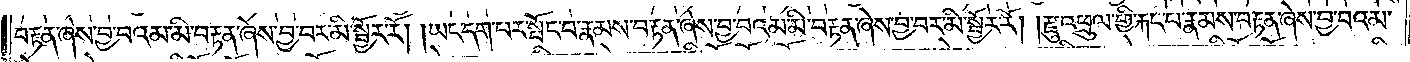བརྟན་ཞེས་བྱ་བའམ་མི་བརྟན་ཞེས་བྱ་བར་མི་སྦྱོར་རོ། །ཡང་དག་པར་སྤོང་བ་རྣམས་བརྟན་ཞེས་བྱ་བའམ་མི་བརྟན་ཞེས་བྱ་བར་མི་སྦྱོར་རོ། །རྫུ་འཕྲུལ་གྱི་རྐང་པ་རྣམས་བརྟན་ཞེས་བྱ་བའམ་
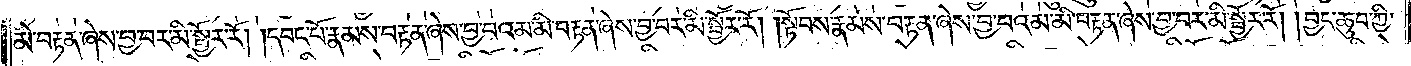མི་བརྟན་ཞེས་བྱ་བར་མི་སྦྱོར་རོ། །དབང་པོ་རྣམས་བརྟན་ཞེས་བྱ་བའམ་མི་བརྟན་ཞེས་བྱ་བར་མི་སྦྱོར་རོ། །སྟོབས་རྣམས་བརྟན་ཞེས་བྱ་བའམ་མི་བརྟན་ཞེས་བྱ་བར་མི་སྦྱོར་རོ། །བྱང་ཆུབ་ཀྱི་
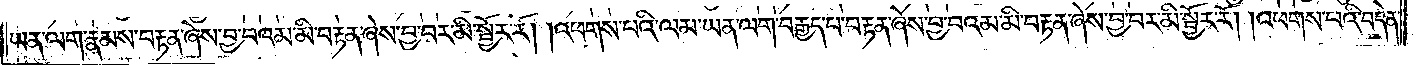ཡན་ལག་རྣམས་བརྟན་ཞེས་བྱ་བའམ་མི་བརྟན་ཞེས་བྱ་བར་མི་སྦྱོར་རོ། །འཕགས་པའི་ལམ་ཡན་ལག་བརྒྱད་པ་བརྟན་ཞེས་བྱ་བའམ་མི་བརྟན་ཞེས་བྱ་བར་མི་སྦྱོར་རོ། །འཕགས་པའི་བདེན་
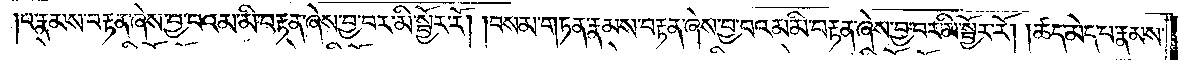པ་རྣམས་བརྟན་ཞེས་བྱ་བའམ་མི་བརྟན་ཞེས་བྱ་བར་མི་སྦྱོར་རོ། །བསམ་གཏན་རྣམས་བརྟན་ཞེས་བྱ་བའམ་མི་བརྟན་ཞེས་བྱ་བར་མི་སྦྱོར་རོ། །ཚད་མེད་པ་རྣམས་
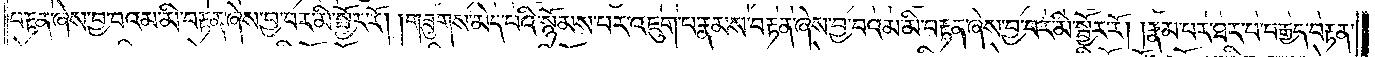བརྟན་ཞེས་བྱ་བའམ་མི་བརྟན་ཞེས་བྱ་བར་མི་སྦྱོར་རོ། །གཟུགས་མེད་པའི་སྙོམས་པར་འཇུག་པ་རྣམས་བརྟན་ཞེས་བྱ་བའམ་མི་བརྟན་ཞེས་བྱ་བར་མི་སྦྱོར་རོ། །རྣམ་པར་ཐར་པ་བརྒྱད་བརྟན་
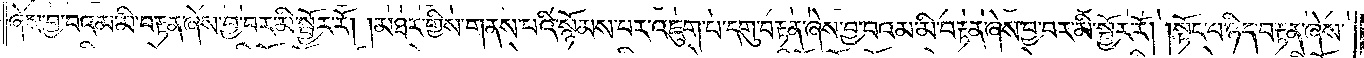ཞེས་བྱ་བའམ་མི་བརྟན་ཞེས་བྱ་བར་མི་སྦྱོར་རོ། །མཐར་གྱིས་གནས་པའི་སྙོམས་པར་འཇུག་པ་དགུ་བརྟན་ཞེས་བྱ་བའམ་མི་བརྟན་ཞེས་བྱ་བར་མི་སྦྱོར་རོ། །སྟོང་པ་ཉིད་བརྟན་ཞེས་
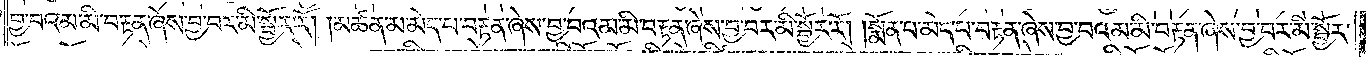བྱ་བའམ་མི་བརྟན་ཞེས་བྱ་བར་མི་སྦྱོར་རོ། །མཚན་མ་མེད་པ་བརྟན་ཞེས་བྱ་བའམ་མི་བརྟན་ཞེས་བྱ་བར་མི་སྦྱོར་རོ། །སྨོན་པ་མེད་པ་བརྟན་ཞེས་བྱ་བའམ་མི་བརྟན་ཞེས་བྱ་བར་མི་སྦྱོར་
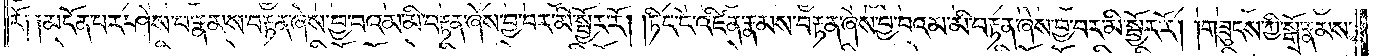རོ༑ ༑མངོན་པར་ཤེས་པ་རྣམས་བརྟན་ཞེས་བྱ་བའམ་མི་བརྟན་ཞེས་བྱ་བར་མི་སྦྱོར་རོ། །ཏིང་ངེ་འཛིན་རྣམས་བརྟན་ཞེས་བྱ་བའམ་མི་བརྟན་ཞེས་བྱ་བར་མི་སྦྱོར་རོ། །གཟུངས་ཀྱི་སྒོ་རྣམས་
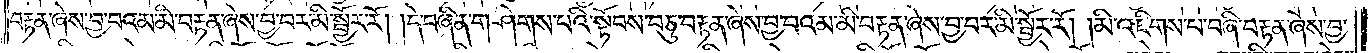བརྟན་ཞེས་བྱ་བའམ་མི་བརྟན་ཞེས་བྱ་བར་མི་སྦྱོར་རོ། །དེ་བཞིན་གཤེགས་པའི་སྟོབས་བཅུ་བརྟན་ཞེས་བྱ་བའམ་མི་བརྟན་ཞེས་བྱ་བར་མི་སྦྱོར་རོ། །མི་འཇིགས་པ་བཞི་བརྟན་ཞེས་བྱ་
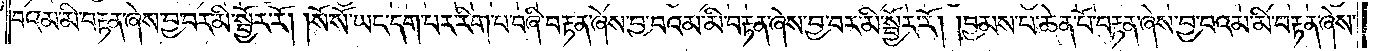བའམ་མི་བརྟན་ཞེས་བྱ་བར་མི་སྦྱོར་རོ། །སོ་སོ་ཡང་དག་པར་རིག་པ་བཞི་བརྟན་ཞེས་བྱ་བའམ་མི་བརྟན་ཞེས་བྱ་བར་མི་སྦྱོར་རོ། །བྱམས་པ་ཆེན་པོ་བརྟན་ཞེས་བྱ་བའམ་མི་བརྟན་ཞེས་
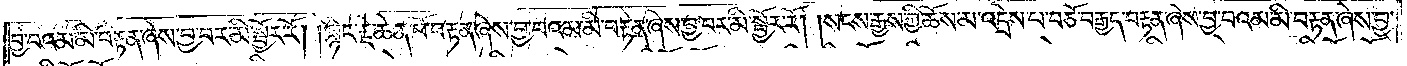བྱ་བའམ་མི་བརྟན་ཞེས་བྱ་བར་མི་སྦྱོར་རོ། །སྙིང་རྗེ་ཆེན་པོ་བརྟན་ཞེས་བྱ་བའམ་མི་བརྟན་ཞེས་བྱ་བར་མི་སྦྱོར་རོ། །སངས་རྒྱས་ཀྱི་ཆོས་མ་འདྲེས་པ་བཅོ་བརྒྱད་བརྟན་ཞེས་བྱ་བའམ་མི་བརྟན་ཞེས་བྱ་
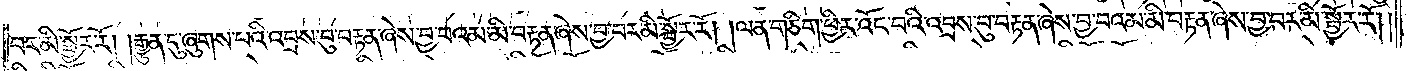བར་མི་སྦྱོར་རོ། །རྒྱུན་དུ་ཞུགས་པའི་འབྲས་བུ་བརྟན་ཞེས་བྱ་བའམ་མི་བརྟན་ཞེས་བྱ་བར་མི་སྦྱོར་རོ། །ལན་གཅིག་ཕྱིར་འོང་བའི་འབྲས་བུ་བརྟན་ཞེས་བྱ་བའམ་མི་བརྟན་ཞེས་བྱ་བར་མི་སྦྱོར་རོ། །
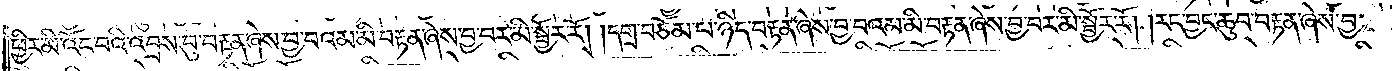ཕྱིར་མི་འོང་བའི་འབྲས་བུ་བརྟན་ཞེས་བྱ་བའམ་མི་བརྟན་ཞེས་བྱ་བར་མི་སྦྱོར་རོ། །དགྲ་བཅོམ་པ་ཉིད་བརྟན་ཞེས་བྱ་བའམ་མི་བརྟན་ཞེས་བྱ་བར་མི་སྦྱོར་རོ། །རང་བྱང་ཆུབ་བརྟན་ཞེས་བྱ་
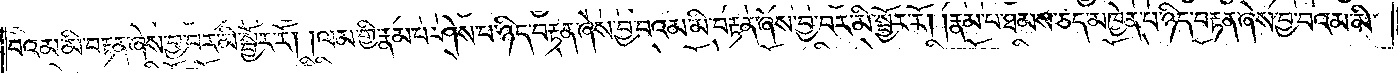བའམ་མི་བརྟན་ཞེས་བྱ་བར་མི་སྦྱོར་རོ། །ལམ་གྱི་རྣམ་པ་ཤེས་པ་ཉིད་བརྟན་ཞེས་བྱ་བར་མི་སྦྱོར་རོ། །རྣམ་པ་ཐམས་ཅད་མཁྱེན་པ་ཉིད་བརྟན་ཞེས་བྱ་བའམ་མི་
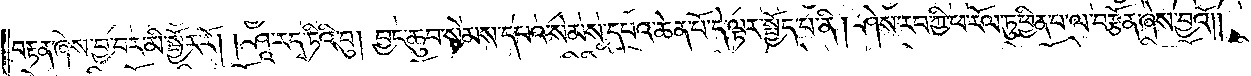བརྟན་ཞེས་བྱ་བར་མི་སྦྱོར་རོ། །ཤཱ་རདྭ་ཏིའི་བུ། བྱང་ཆུབ་སེམས་དཔའ་སེམས་དཔའ་ཆེན་པོ་དེ་ལྟར་སྤྱོད་པ་ནི། ཤེས་རབ་ཀྱི་ཕ་རོལ་ཏུ་ཕྱིན་པ་ལ་བརྩོན་ཞེས་བྱའོ༎
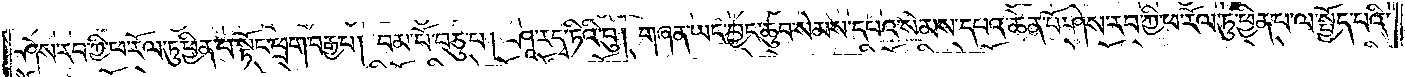ཤེས་རབ་ཀྱི་ཕ་རོལ་ཏུ་ཕྱིན་པ་སྟོང་ཕྲག་བརྒྱ་པ། བམ་པོ་བཅུ་པ། ཤཱ་རདྭ་ཏིའི་བུ། གཞན་ཡང་བྱང་ཆུབ་སེམས་དཔའ་སེམས་དཔའ་ཆེན་པོ་ཤེས་རབ་ཀྱི་ཕ་རོལ་ཏུ་ཕྱིན་པ་ལ་སྤྱོད་པའི་
